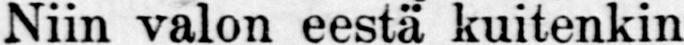Niin valon eestä kuitenkin
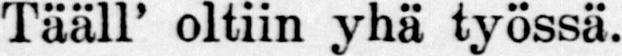Tääll' oltiin yhä työssä.
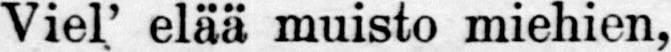Viel.' elää muisto miehien,
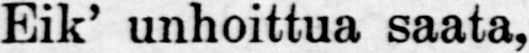Eik' unhoittua saata,
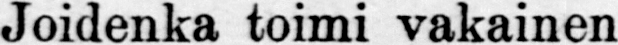joidenka toimi vakainen
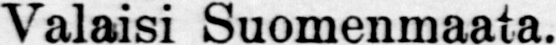Valaisi Suomenmaata.
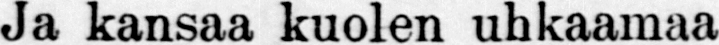ja Kansaa kuolen uhkaamaa
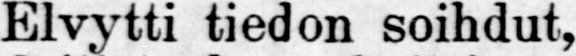Elvytti tiedon soihdut,
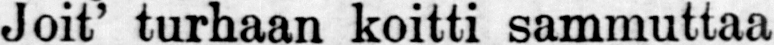joit' turhaan koitti sammuttaa
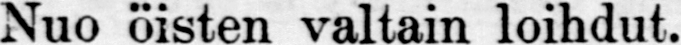Nuo öisten valtain loihdut.
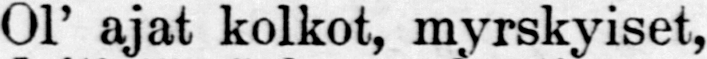Ol' ajat kolkot, myrskyiset,
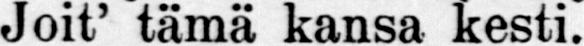joit' tämä kansa kesti.
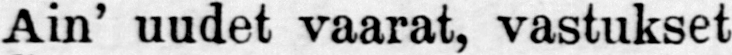Ain' uudet vaarat, vastukset
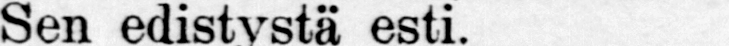Sen edistystä esti.
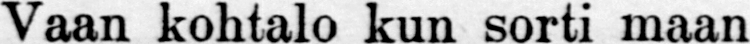Vaan kohtalo kun sorti maan
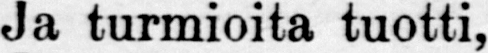ja turmioita tuotti,
